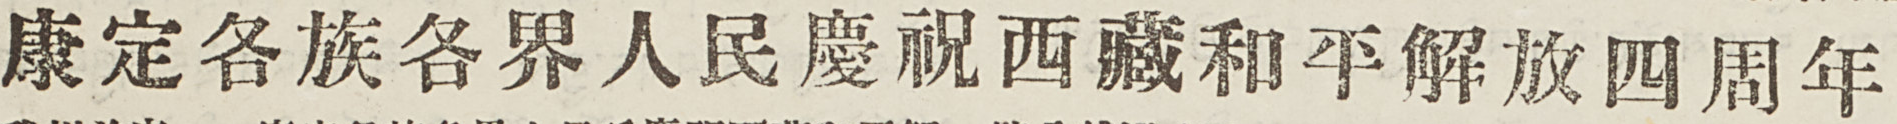康定各族各界人民慶祝西藏和平解放四周年
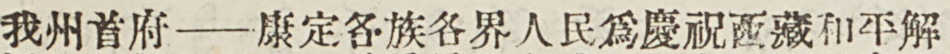我州首府——康定各族各界人民慶祝西藏和平解
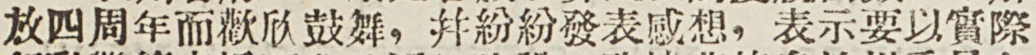放四周年而歡欣鼓舞，並紛紛發表感想，表示要以實際
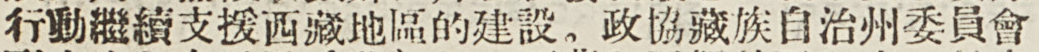行動繼續支援西藏地區的建設。政協藏族自治州委員會
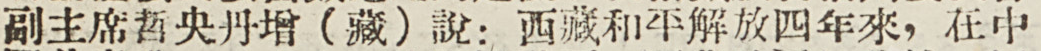副主席哲央丹增（藏）說：西藏和平解放四年來，在中
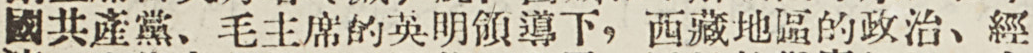國共產黨、毛主席的英明領導下，西藏地區的政治、經
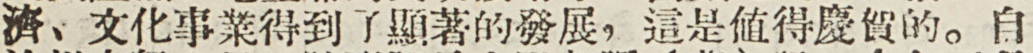濟、文化事業得到了顯著的發展，這是值得慶賀的。自
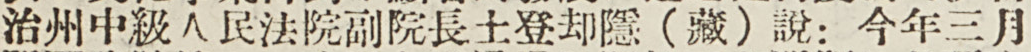治州中級人民法院副院長土登却隱（藏）說：今年三月
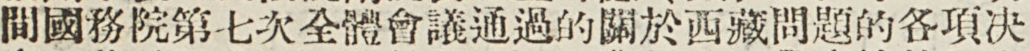間國務院第七次全體會議通過的關於西藏問題的各項決
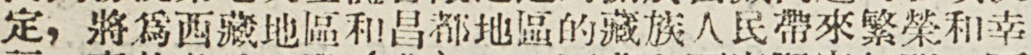定，將爲西藏地區和昌都地區的藏族人民帶來繁榮和幸
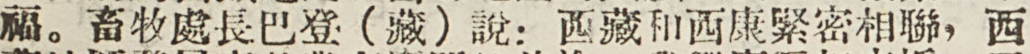福。畜牧處長巴登（藏）說：西藏和西康緊密相聯，西
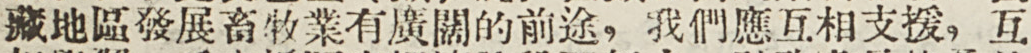藏地區發展畜牧業有廣闊的前途，我們應互相支援，互
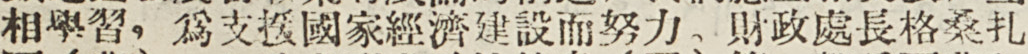相學習，爲支援國家經濟建設而努力。財政處長格桑扎
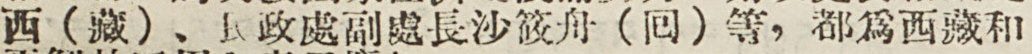西（藏）、民政處副處長沙筱舟（囘）等，都爲西藏和
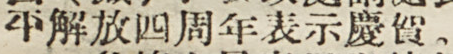平解放四周年表示慶賀。
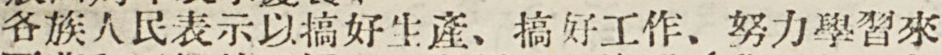各族人民表示以搞好生產、搞好工作、努力學習來
